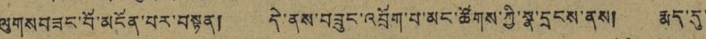ལུགས བཟང་པོ་མངོན་པར་བསྟན། དེ་ནས་བཟུང་འབྲོག་པ་མང་ཚོགས་ཀྱི་སྣ་དྲངས་ནས། རྨད་དུ་
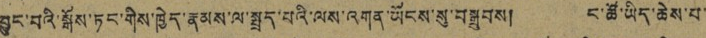བྱུང་བའི་སྒོས་ཏང་གིས་ཁྱེད་རྣམས་ལ་སྤྲད་པའི་ལས་འགན་ཡོངས་སུ་བསྒྲུབས། ང་ཚོ་ཡིད་ཆེས་པ་
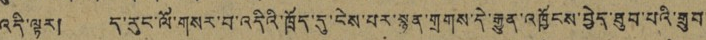འདི་ལྟར། ད་རུང་ལོ་གསར་བ་འདིའི་ཁྲོད་དུ་ངེས་པར་སྙན་གྲགས་དེ་རྒྱུན་འཁྱོངས་བྱེད་ཐུབ་པའི་གྲུབ་
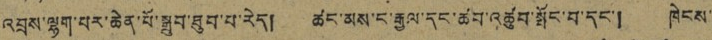འབྲས་ལྷག་པར་ཆེན་པོ་སྒྲུབ་ཐུབ་པ་རེད། ཚང་མས་ང་རྒྱལ་དང་ཚབ་འཚུབ་སྤོང་བ་དང་། ཁེངས་
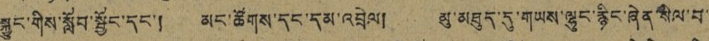སྐྱུང་གིས་སློབ་སྦྱོང་དང་། མང་ཚོགས་དང་དམ་འབྲེལ། མུ་མཐུད་དུ་གཡས་ལྷུང་རྙིང་ཞེན་སེལ་བ་
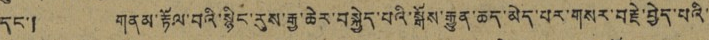དང་། གནམ་རྟོལ་བའི་སྙིང་རུས་རྒྱ་ཆེར་བསྐྱེད་པའི་སྒོས་རྒྱུན་ཆད་མེད་པར་གསར་བརྗེ་བྱེད་པའི་
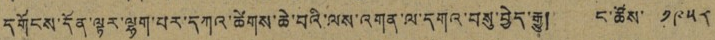དགོངས་དོན་ལྟར་ལྷག་པར་དཀའ་ཚེགས་ཆེ་བའི་ལས་འགན་ལ་དགའ་བསུ་བྱེད་རྒྱུ། ང་ཚོས་ ༡༩༥༨
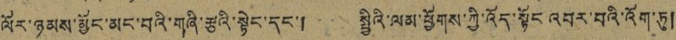ལོར་ཉམས་མྱོང་མང་བའི་གཞི་རྩའི་སྟེང་དང་། སྤྱིའི་ལམ་ཕྱོགས་ཀྱི་འོད་སྟོང འབར་བའི་འོག་ཏུ།
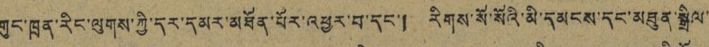གུང་ཁྲན་རིང་ལུགས་ཀྱི་དར་དམར་མཐོན་པོར་འཕྱར་བ་དང་། རིགས་སོ་སོའི་མི་དམངས་དང་མཐུན་སྒྲིལ་
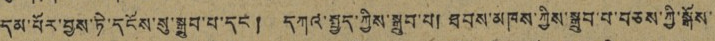དམ་པོར་བྱས་ཏི་དངོས་སུ་སྒྲུབ་པ་དང་། དཀའ་སྤྱད་ཀྱིས་སྒྲུབ་པ། ཐབས་མཁས་ཀྱིས་སྒྲུབ་པ་བཅས་ཀྱི་སྒོས་
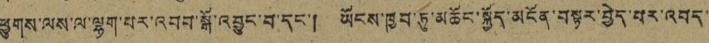ཕྱུགས་ལས་ལ་ལྷག་པར་འབབ་སྒོ་འབྱུང་བ་དང་། ཡོངས་ཁྱབ་ཏུ་མཆོང་སྐྱོད་མངོན་བསྟར་བྱེད་པར་འབད་
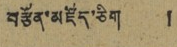བརྩོན་མཛོད་ཅིག །
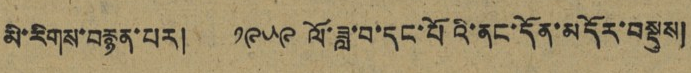མི་རིགས་བརྙན་པར། ༡༩༥༩ ལོ་ཟླ་བ་དང་པོའི་ནང་དོན་མདོར་བསྡུས།
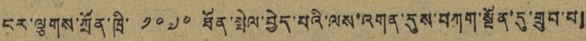ངར་ལྕགས་ཀྲོན་ཁྲི་ ༡༩༧༠ ཐོན་སྤེལ་བྱེད་པའི་ལས་འགན་དུས་བཀག་སྔོན་དུ་གྲུབ་པ།
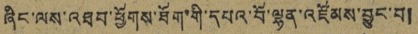ཞིང་ལས་འཐབ་ཕྱོགས་ཐོག་གི་དབའ་བོ་ལྷན་འཛོམས་བྱུང་བ།
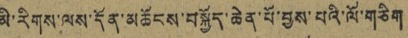མི་རིགས་ལས་དོན་མཆོངས་བསྐྱོད་ཆེན་པོ་བྱས་པའི་ལོ་གཅིག
